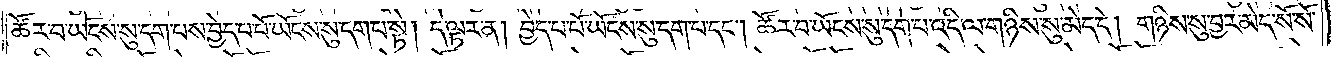ཚོར་བ་ཡོངས་སུ་དག་པས་བྱེད་པ་པོ་ཡོངས་སུ་དག་པ་སྟེ། དེ་ལྟར་ན། བྱེད་པ་པོ་ཡོངས་སུ་དག་པ་དང༌། ཚོར་བ་ཡོངས་སུ་དག་པ་འདི་ལ་གཉིས་སུ་མེད་དེ། གཉིས་སུ་བྱར་མེད་སོ་སོ་
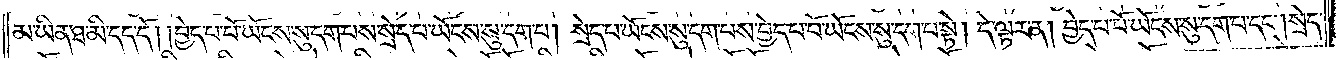མ་ཡིན་ཐ་མི་དད་དོ། །བྱེད་པ་པོ་ཡོངས་སུ་དག་པས་སྲེད་པ་ཡོངས་སུ་དག་པ། སྲེད་པ་ཡོངས་སུ་དག་པས་བྱེད་པ་པོ་ཡོངས་སུ་དག་པ་སྟེ། དེ་ལྟར་ན། བྱེད་པ་པོ་ཡོངས་སུ་དག་པ་དང༌། སྲེད་
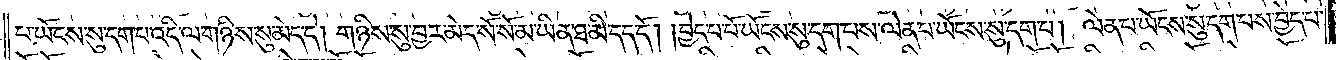པ་ཡོངས་སུ་དག་པ་འདི་ལ་གཉིས་སུ་མེད་དེ། གཉིས་སུ་བྱར་མེད་སོ་སོ་མ་ཡིན་ཐ་མི་དད་དོ། །བྱེད་པ་པོ་ཡོངས་སུ་དག་པས་ལེན་པ་ཡོངས་སུ་དག་པ། ལེན་པ་ཡོངས་སུ་དག་པས་བྱེད་པ་
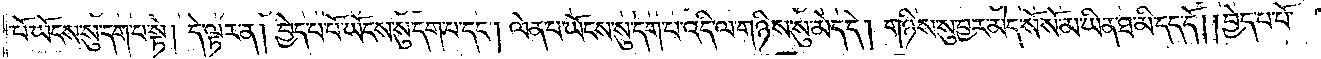པོ་ཡོངས་སུ་དག་པ་སྟེ། དེ་ལྟར་ན། བྱེད་པ་པོ་ཡོངས་སུ་དག་པ་དང༌། ལེན་པ་ཡོངས་སུ་དག་པ་འདི་ལ་གཉིས་སུ་མེད་དེ། གཉིས་སུ་བྱར་མེད་སོ་སོ་མ་ཡིན་ཐ་མི་དད་དོ། །བྱེད་པ་པོ་
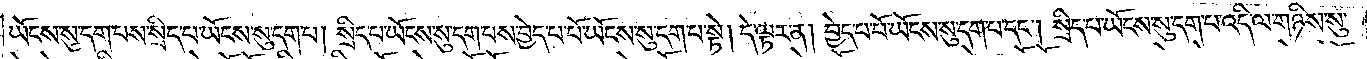ཡོངས་སུ་དག་པས་སྲིད་པ་ཡོངས་སུ་དག་པ། སྲིད་པ་ཡོངས་སུ་དག་པས་བྱེད་པ་པོ་ཡོངས་སུ་དག་པ་སྟེ། དེ་ལྟར་ན། བྱེད་པ་པོ་ཡོངས་སུ་དག་པ་དང༌། སྲིད་པ་ཡོངས་སུ་དག་པ་འདི་ལ་གཉིས་སུ་
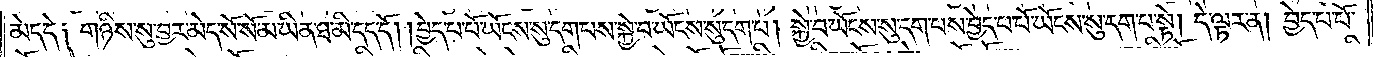མེད་དེ༑ གཉིས་སུ་བྱར་མེད་སོ་སོ་མ་ཡིན་ཐ་མི་དད་དོ། །བྱེད་པ་པོ་ཡོངས་སུ་དག་པས་སྐྱེ་བ་ཡོངས་སུ་དག་པ། སྐྱེ་བ་ཡོངས་སུ་དག་པས་བྱེད་པ་པོ་ཡོངས་སུ་དག་པ་སྟེ། དེ་ལྟར་ན། བྱེད་པ་པོ་
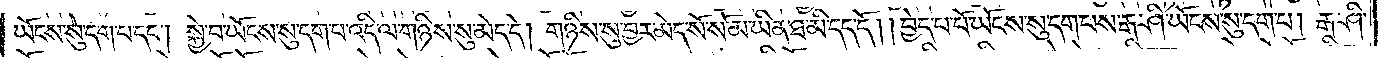ཡོངས་སུ་དག་པ་དང༌། སྐྱེ་བ་ཡོངས་སུ་དག་པ་འདི་ལ་གཉིས་སུ་མེད་དེ། གཉིས་སུ་བྱར་མེད་སོ་སོ་མ་ཡིན་ཐ་མི་དད་དོ། །བྱེད་པ་པོ་ཡོངས་སུ་དག་པས་རྒ་ཤི་ཡོངས་སུ་དག་པ། རྒ་ཤི་
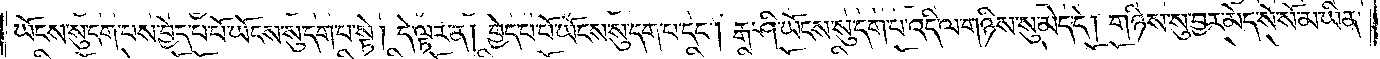ཡོངས་སུ་དག་པས་བྱེད་པ་པོ་ཡོངས་སུ་དག་པ་སྟེ། དེ་ལྟར་ན། བྱེད་པ་པོ་ཡོངས་སུ་དག་པ་དང༌། རྒ་ཤི་ཡོངས་སུ་དག་པ་འདི་ལ་གཉིས་སུ་མེད་དེ། གཉིས་སུ་བྱར་མེད་སོ་སོ་མ་ཡིན་
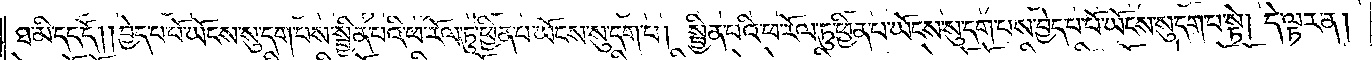ཐ་མི་དད་དོ། །བྱེད་པ་པོ་ཡོངས་སུ་དག་པས་སྦྱིན་པའི་ཕ་རོལ་ཏུ་ཕྱིན་པ་ཡོངས་སུ་དག་པ། སྦྱིན་པའི་ཕ་རོལ་ཏུ་ཕྱིན་པ་ཡོངས་སུ་དག་པས་བྱེད་པ་པོ་ཡོངས་སུ་དག་པ་སྟེ། དེ་ལྟར་ན།
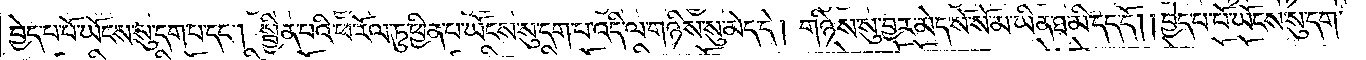བྱེད་པ་པོ་ཡོངས་སུ་དག་པ་དང༌། སྦྱིན་པའི་ཕ་རོལ་ཏུ་ཕྱིན་པ་ཡོངས་སུ་དག་པ་འདི་ལ་གཉིས་སུ་མེད་དེ། གཉིས་སུ་བྱར་མེད་སོ་སོ་མ་ཡིན་ཐ་མི་དད་དོ། །བྱེད་པ་པོ་ཡོངས་སུ་དག་
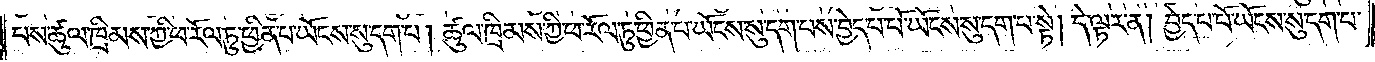པས་ཚུལ་ཁྲིམས་ཀྱི་ཕ་རོལ་ཏུ་ཕྱིན་པ་ཡོངས་སུ་དག་པ། ཚུལ་ཁྲིམས་ཀྱི་ཕ་རོལ་ཏུ་ཕྱིན་པ་ཡོངས་སུ་དག་པས་བྱེད་པ་པོ་ཡོངས་སུ་དག་པ་སྟེ། དེ་ལྟར་ན། བྱེད་པ་པོ་ཡོངས་སུ་དག་པ་
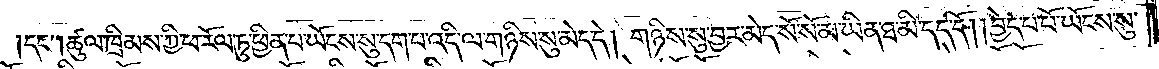དང༌། ཚུལ་ཁྲིམས་ཀྱི་ཕ་རོལ་ཏུ་ཕྱིན་པ་ཡོངས་སུ་དག་པ་འདི་ལ་གཉིས་སུ་མེད་དེ། གཉིས་སུ་བྱར་མེད་སོ་སོ་མ་ཡིན་ཐ་མི་དད་དོ། །བྱེད་པ་པོ་ཡོངས་སུ་
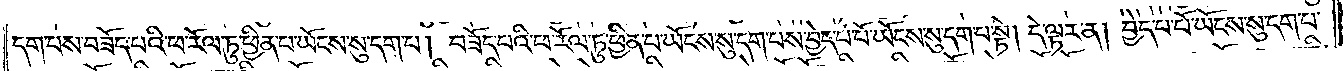དག་པས་བཟོད་པའི་ཕ་རོལ་ཏུ་ཕྱིན་པ་ཡོངས་སུ་དག་པ། བཟོད་པའི་ཕ་རོལ་ཏུ་ཕྱིན་པ་ཡོངས་སུ་དག་པས་བྱེད་པ་པོ་ཡོངས་སུ་དག་པ་སྟེ། དེ་ལྟར་ན། བྱེད་པ་པོ་ཡོངས་སུ་དག་པ་
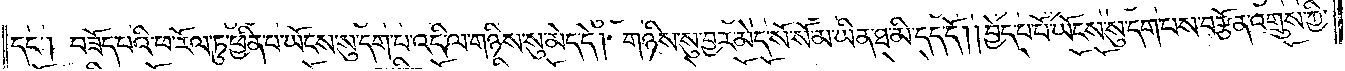དང༌། བཟོད་པའི་ཕ་རོལ་ཏུ་ཕྱིན་པ་ཡོངས་སུ་དག་པ་འདི་ལ་གཉིས་སུ་མེད་དེ། གཉིས་སུ་བྱར་མེད་སོ་སོ་མ་ཡིན་ཐ་མི་དད་དོ། །བྱེད་པ་པོ་ཡོངས་སུ་དག་པས་བརྩོན་འགྲུས་ཀྱི་
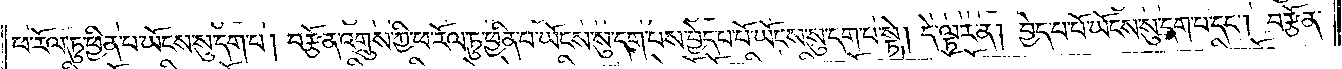ཕ་རོལ་ཏུ་ཕྱིན་པ་ཡོངས་སུ་དག་པ། བརྩོན་འགྲུས་ཀྱི་ཕ་རོལ་ཏུ་ཕྱིན་པ་ཡོངས་སུ་དག་པས་བྱེད་པ་པོ་ཡོངས་སུ་དག་པ་སྟེ། དེ་ལྟར་ན། བྱེད་པ་པོ་ཡོངས་སུ་དག་པ་དང༌། བརྩོན་
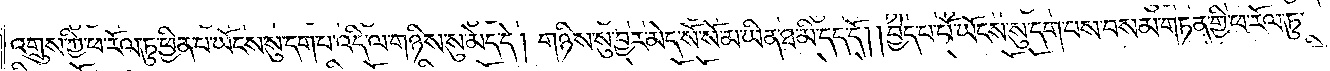འགྲུས་ཀྱི་ཕ་རོལ་ཏུ་ཕྱིན་པ་ཡོངས་སུ་དག་པ་འདི་ལ་གཉིས་སུ་མེད་དེ། གཉིས་སུ་བྱར་མེད་སོ་སོ་མ་ཡིན་ཐ་མི་དད་དོ། །བྱེད་པ་པོ་ཡོངས་སུ་དག་པས་བསམ་གཏན་གྱི་ཕ་རོལ་ཏུ་
